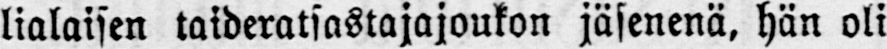lialaisen taideratsastajajoukon jäsenenä, hän oli
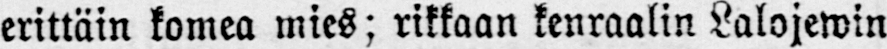erittäin komea mies; rikkaan kenraalin Lalojewin
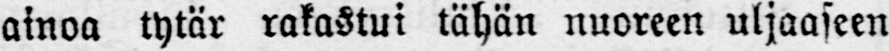ainoa tytär rakastui tähän nuoreen uljaaseen
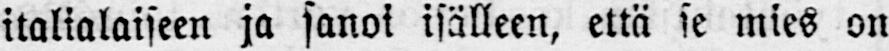italialaiseen ja sanoi isälleen, että se mies on
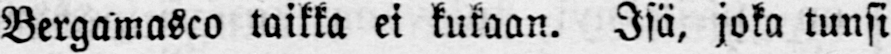Bergamasco taikka ei kukaan. Isä, joka tunsi
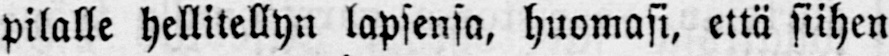pilalle hellitellyn lapsensa, huomasi, että siihen
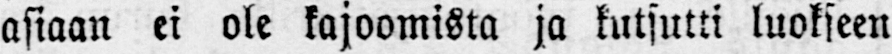asiaan ei ole kajoomista ja kutsutti luokseen
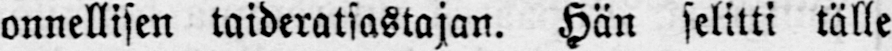onnellisen taideratsastajan. Hän selitti tälle
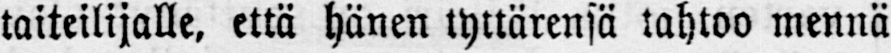taiteilijalle, että hänen tyttärensä tahtoo mennä
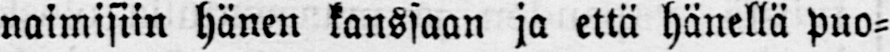naimisiin hänen kanssaan ja että hänellä puo-
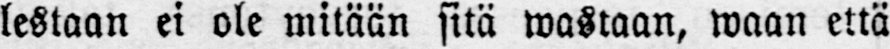lestaan ei ole mitään sitä wastaan, waan että
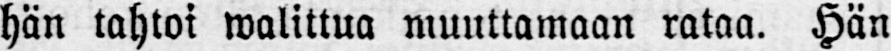hän tahtoi walittua muuttamaan rataa. Hän
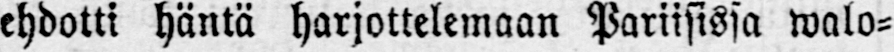ehdotti häntä harjottelemaan Pariisissa walo-
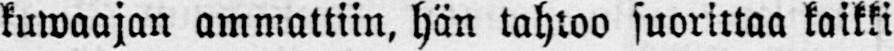kuwaajan ammattiin, hän tahtoo suorittaa kaikki
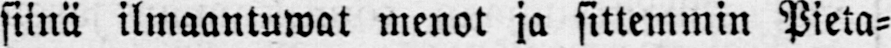siinä ilmaantuwat menot ja sittemmin Pieta-
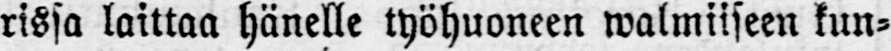rissa laittaa hänelle työhuoneen walmiiseen kun-
